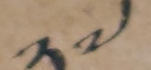༢༧
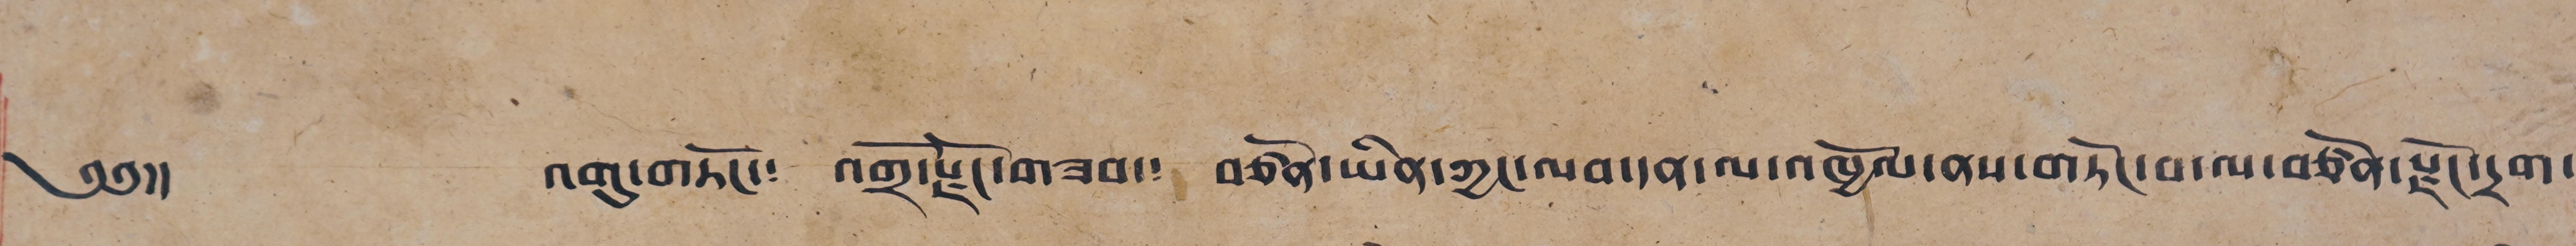༄༅།། འགུ་གཏོང་༴ འགྲོ་རྫོང་གཟབ་༴ བཙོན་ཡིན་ཀྱང་ལབ་དན་ལ་འཁྱོལ་ནས་གཏོང་བ་ལ་བཙོན་རྫོང་དྲག་
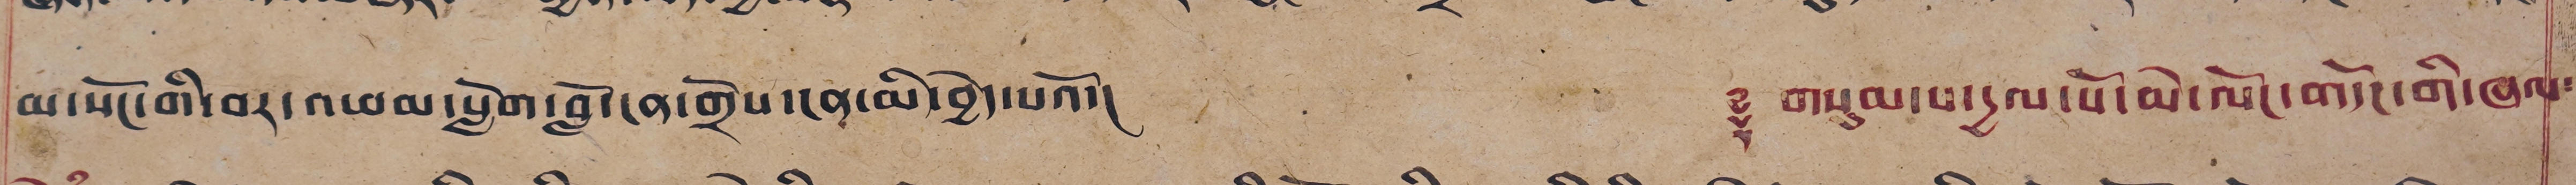མ་སོང་གི་བར་འཕམ་སློག་བློ་ངན་གྲོས་ངན་མི་བྱེད་པའོ་།  ༈ གསུམ་པ་དྱལ་པོ་མེ་ལེང་གདོང་གི་ཞལ་
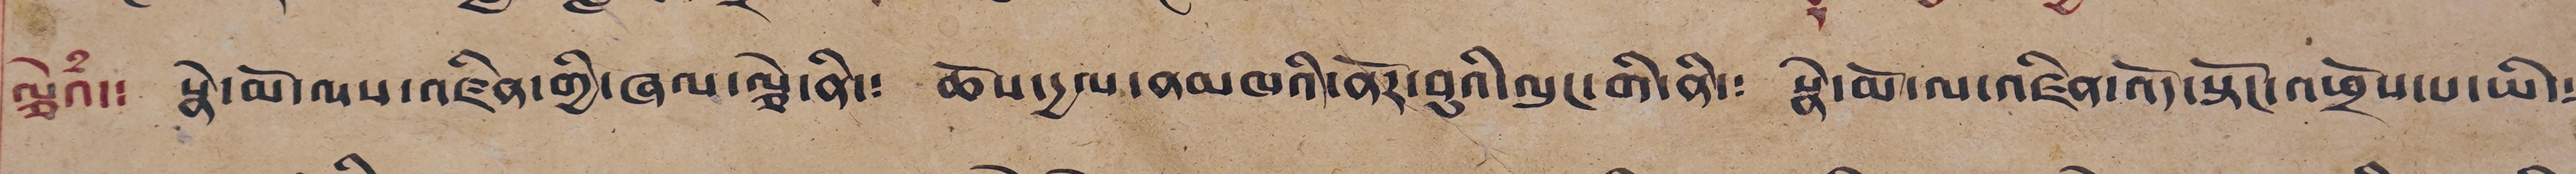ལྕེའཾ་། སྣེ་མོ་ལས་འཛིན་གྱི་ཞལ་ལྕེ་ནི་༴ ཆོས་དྱལ་ནམཁའི་ནོར་བུའི་ལུང་གི་ནི་༴ སྣེ་མོ་ལ་འཛིན་འོད་སྟོང་འཕྲོས་པ་ཡི་༴
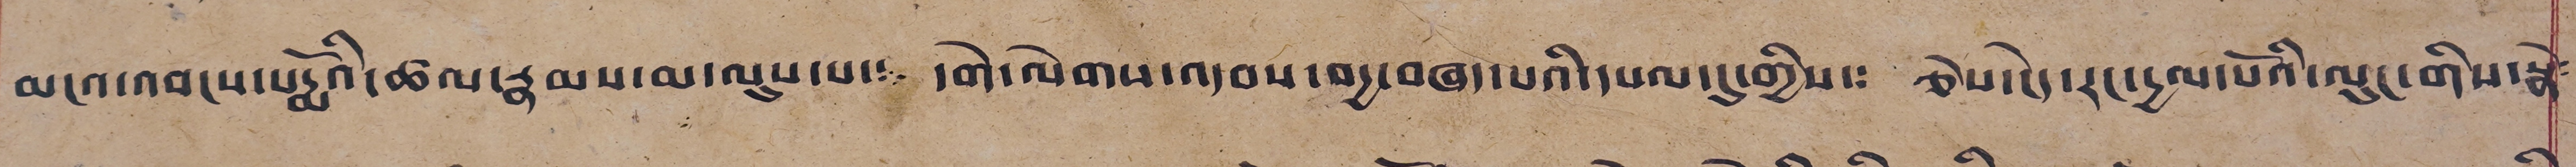མངའ་འབངས་པདྨོའི་ཚལ་རྣམས་མ་ལུས་པ་༴ དགེ་ལེགས་འདབས་བདྱ་བཞད་པའི་དཔལ་དུ་གྱིས་༴ ཅེས་ངེད་རང་དྱལ་པོའི་ལུང་གིས་སྣེ༴
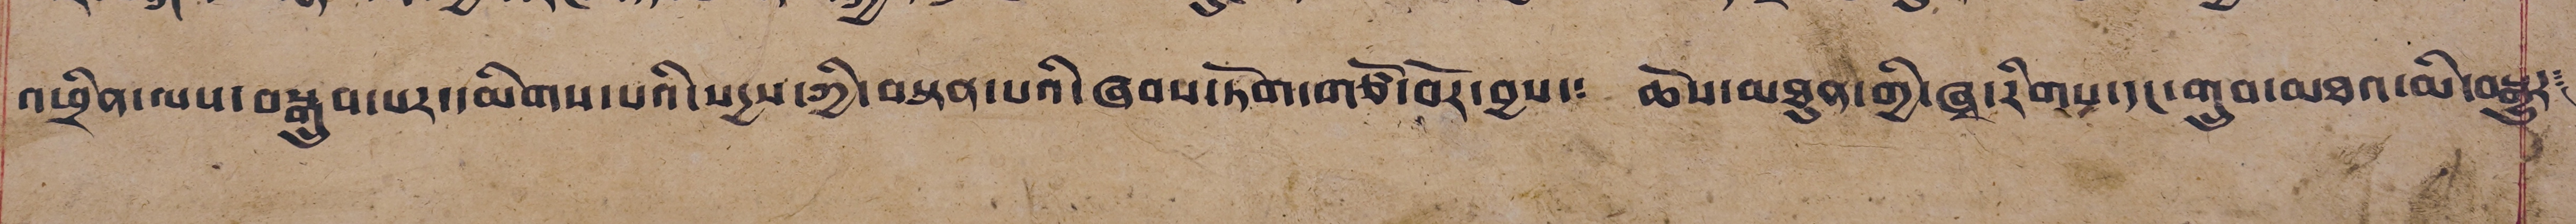འཕྲིན་ལས་བསྒྲུབ་པར་དམིགས་པའི་སདྱས་ཀྱི་བསྟན་པའི་ཞབས་ཏོག་གཙོ་བོར་བྱས་༴ ཆོས་མཐུན་གྱི་ཞྭ་རིགས་དང་གྲུབ་མཐའ་མི་བསྒྱུར༴
